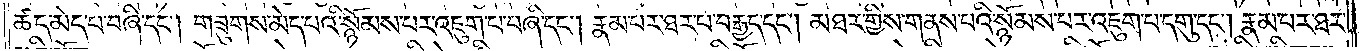ཚད་མེད་པ་བཞི་དང༌། གཟུགས་མེད་པའི་སྙོམས་པར་འཇུག་པ་བཞི་དང༌། རྣམ་པར་ཐར་པ་བརྒྱད་དང༌། མཐར་གྱིས་གནས་པའི་སྙོམས་པར་འཇུག་པ་དགུ་དང༌། རྣམ་པར་ཐར་
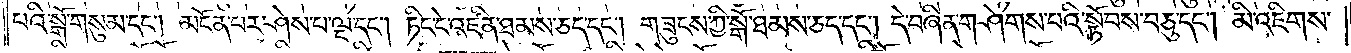པའི་སྒོ་གསུམ་དང༌། མངོན་པར་ཤེས་པ་ལྔ་དང༌། ཏིང་ངེ་འཛིན་ཐམས་ཅད་དང༌། གཟུངས་ཀྱི་སྒོ་ཐམས་ཅད་དང༌། དེ་བཞིན་གཤེགས་པའི་སྟོབས་བཅུ་དང༌། མི་འཇིགས་
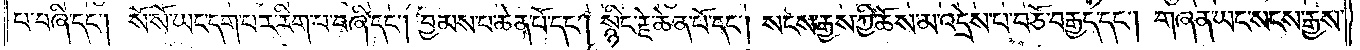པ་བཞི་དང༌། སོ་སོ་ཡང་དག་པར་རིག་པ་བཞི་དང༌། བྱམས་པ་ཆེན་པོ་དང༌། སྙིང་རྗེ་ཆེན་པོ་དང༌། སངས་རྒྱས་ཀྱི་ཆོས་མ་འདྲེས་པ་བཅོ་བརྒྱད་དང༌། གཞན་ཡང་སངས་རྒྱས་
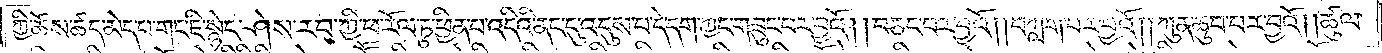ཀྱི་ཆོས་ཚད་མེད་པ་གང་ཇི་སྙེད་ཤེས་རབ་ཀྱི་ཕ་རོལ་ཏུ་ཕྱིན་པ་འདིའི་ནང་དུ་འདུས་པ་དེ་དག་ཀྱང་གཟུང་བར་བྱའོ། །བཅང་བར་བྱའོ། །བཀླག་པར་བྱའོ། །ཀུན་ཆུབ་པར་བྱའོ། །ཚུལ་
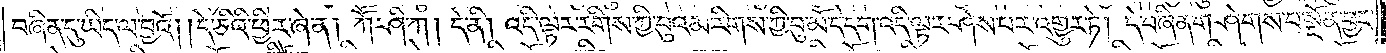བཞིན་དུ་ཡིད་ལ་བྱའོ། །དེ་ཅིའི་ཕྱིར་ཞེ་ན། ཀཽ་ཤི་ཀ། དེ་ནི། འདི་ལྟར་རིགས་ཀྱི་བུའམ་རིགས་ཀྱི་བུ་མོ་དེ་དག་འདི་ལྟར་ཤེས་པར་འགྱུར་ཏེ། དེ་བཞིན་གཤེགས་པ་སྔོན་བྱང་
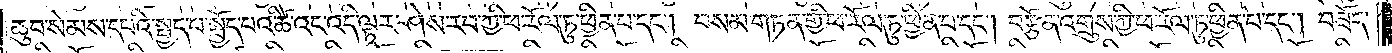ཆུབ་སེམས་དཔའི་སྤྱད་པ་སྤྱོད་པའི་ཚེའང་འདི་ལྟར་ཤེས་རབ་ཀྱི་ཕ་རོལ་ཏུ་ཕྱིན་པ་དང༌། བསམ་གཏན་གྱི་ཕ་རོལ་ཏུ་ཕྱིན་པ་དང༌། བརྩོན་འགྲུས་ཀྱི་ཕ་རོལ་ཏུ་ཕྱིན་པ་དང༌། བཟོད་
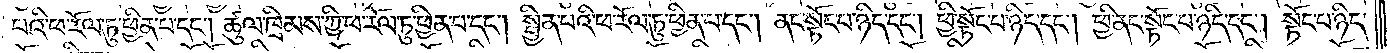པའི་ཕ་རོལ་ཏུ་ཕྱིན་པ་དང༌། ཚུལ་ཁྲིམས་ཀྱི་ཕ་རོལ་ཏུ་ཕྱིན་པ་དང༌། སྦྱིན་པའི་ཕ་རོལ་ཏུ་ཕྱིན་པ་དང༌། ནང་སྟོང་པ་ཉིད་དང༌། ཕྱི་སྟོང་པ་ཉིད་དང༌། ཕྱི་ནང་སྟོང་པ་ཉིད་དང༌། སྟོང་པ་ཉིད་
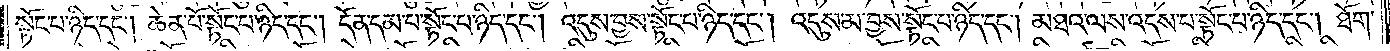སྟོང་པ་ཉིད་དང༌། ཆེན་པོ་སྟོང་པ་ཉིད་དང༌། དོན་དམ་པ་སྟོང་པ་ཉིད་དང༌། འདུས་བྱས་སྟོང་པ་ཉིད་དང༌། འདུས་མ་བྱས་སྟོང་པ་ཉིད་དང༌། མཐའ་ལས་འདས་པ་སྟོང་པ་ཉིད་དང༌། ཐོག་
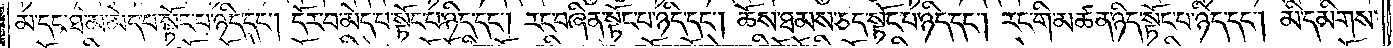མ་དང་ཐ་མ་མེད་པ་སྟོང་པ་ཉིད་དང༌། དོར་བ་མེད་པ་སྟོང་པ་ཉིད་དང༌། རང་བཞིན་སྟོང་པ་ཉིད་དང༌། ཆོས་ཐམས་ཅད་སྟོང་པ་ཉིད་དང༌། རང་གི་མཚན་ཉིད་སྟོང་པ་ཉིད་དང༌། མི་དམིགས་
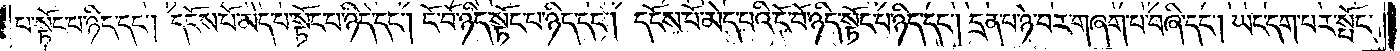པ་སྟོང་པ་ཉིད་དང༌། དངོས་པོ་མེད་པ་སྟོང་པ་ཉིད་དང༌། ངོ་བོ་ཉིད་སྟོང་པ་ཉིད་དང༌། དངོས་པོ་མེད་པའི་ངོ་བོ་ཉིད་སྟོང་པ་ཉིད་དང༌། དྲན་པ་ཉེ་བར་གཞག་པ་བཞི་དང༌། ཡང་དག་པར་སྤོང་
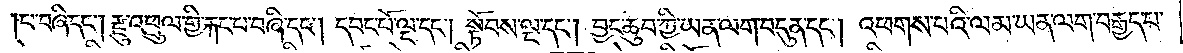པ་བཞི་དང༌། རྫུ་འཕྲུལ་གྱི་རྐང་པ་བཞི་དང༌། དབང་པོ་ལྔ་དང༌། སྟོབས་ལྔ་དང༌། བྱང་ཆུབ་ཀྱི་ཡན་ལག་བདུན་དང༌། འཕགས་པའི་ལམ་ཡན་ལག་བརྒྱད་པ་
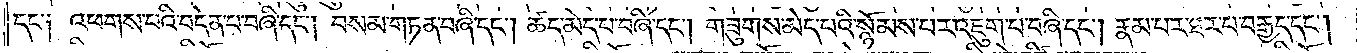དང༌། འཕགས་པའི་བདེན་པ་བཞི་དང༌། བསམ་གཏན་བཞི་དང༌། ཚད་མེད་པ་བཞི་དང༌། གཟུགས་མེད་པའི་སྙོམས་པར་འཇུག་པ་བཞི་དང༌། རྣམ་པར་ཐར་པ་བརྒྱད་དང༌།
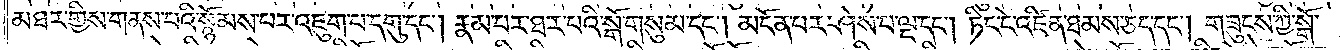མཐར་གྱིས་གནས་པའི་སྙོམས་པར་འཇུག་པ་དགུ་དང༌། རྣམ་པར་ཐར་པའི་སྒོ་གསུམ་དང༌། མངོན་པར་ཤེས་པ་ལྔ་དང༌། ཏིང་ངེ་འཛིན་ཐམས་ཅད་དང༌། གཟུངས་ཀྱི་སྒོ་
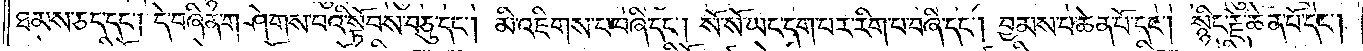ཐམས་ཅད་དང༌། དེ་བཞིན་གཤེགས་པའི་སྟོབས་བཅུ་དང༌། མི་འཇིགས་པ་བཞི་དང༌། སོ་སོ་ཡང་དག་པར་རིག་པ་བཞི་དང༌། བྱམས་པ་ཆེན་པོ་དང༌། སྙིང་རྗེ་ཆེན་པོ་དང༌།
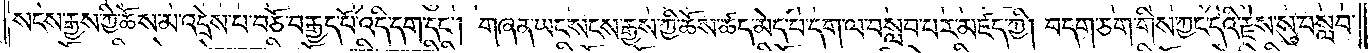སངས་རྒྱས་ཀྱི་ཆོས་མ་འདྲེས་པ་བཅོ་བརྒྱད་པོ་འདི་དག་དང༌། གཞན་ཡང་སངས་རྒྱས་ཀྱི་ཆོས་ཚད་མེད་པ་དག་ལ་བསླབ་པར་མཛད་ཀྱི། བདག་ཅག་གིས་ཀྱང་དེའི་རྗེས་སུ་བསླབ་
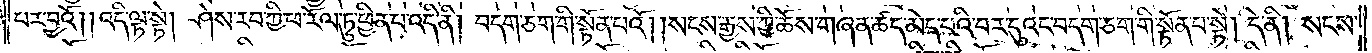པར་བྱའོ། །འདི་ལྟ་སྟེ། ཤེས་རབ་ཀྱི་ཕ་རོལ་ཏུ་ཕྱིན་པ་འདི་ནི། བདག་ཅག་གི་སྟོན་པའོ། །སངས་རྒྱས་ཀྱིས་ཆོས་གཞན་ཚད་མེད་པའི་བར་དུའང་བདག་ཅག་གི་སྟོན་པ་སྟེ། དེ་ནི། སངས་
